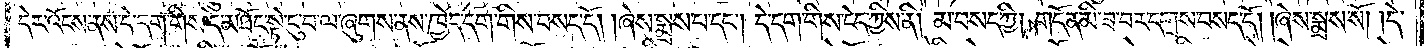དེར་འོངས་ནས་དེ་དག་གིས་དེ་མཐོང་སྟེ་ངུ་བ་ལ་ཞུགས་ནས་ཁྱེད་དག་གིས་བསད་དོ། །ཞེས་སྨྲས་པ་དང༌། དེ་དག་གིས་ངེད་ཀྱིས་ནི། མ་བསད་ཀྱི། གདོན་མི་ཟ་བར་དགྲས་བསད་དོ། །ཞེས་སྨྲས་སོ། །དེ་
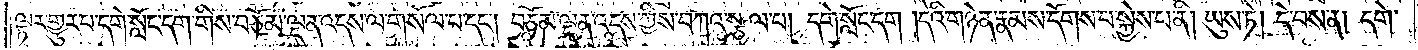ལྟར་གྱུར་པ་དགེ་སློང་དག་གིས་བཅོམ་ལྡན་འདས་ལ་གསོལ་པ་དང༌། བཅོམ་ལྡན་འདས་ཀྱིས་བཀའ་སྩལ་པ། དགེ་སློང་དག །དེའི་གཉེན་རྣམས་དོགས་པ་སྐྱེས་པ་ནི། ཡུས་ཏེ། དེ་བས་ན། དགེ་
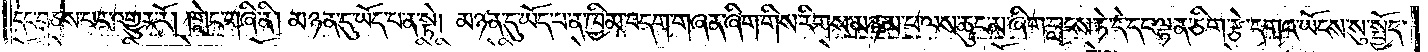དང་བཅས་པར་འགྱུར་རོ། །གླེང་གཞི་ནི། མཉན་དུ་ཡོད་པ་ན་སྟེ། མཉན་དུ་ཡོད་པ་ན་ཁྱིམ་བདག་གཞན་ཞིག་གིས་རིགས་མཉམ་པ་ལས་ཆུང་མ་ཞིག་བླངས་ཏེ་དེ་དང་ལྷན་ཅིག་རྩེ་དགའ་ཡོངས་སུ་སྤྱོད་
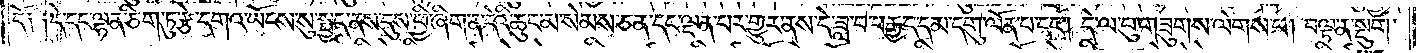དོ། །དེ་དང་ལྷན་ཅིག་ཏུ་རྩེ་དགའ་ཡོངས་སུ་སྤྱད་ནས་དུས་ཕྱི་ཞིག་ན་དེའི་ཆུང་མ་སེམས་ཅན་དང་ལྡན་པར་གྱུར་ནས་དེ་ཟླ་བ་བརྒྱད་དམ་དགུ་ལོན་པ་དང༌། དེ་ལ་བུ་གཟུགས་ལེགས་པ། བལྟ་ན་སྡུག་
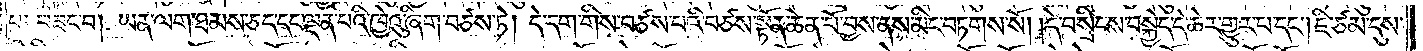པ། བཟང་བ། ཡན་ལག་ཐམས་ཅད་དང་ལྡན་པའི་ཁྱེའུ་ཞིག་བཙས་ཏེ། དེ་དག་གིས་བཙས་པའི་བཙས་སྟོན་ཆེན་པོ་བྱས་ནས་མིང་བཏགས་སོ། །དེ་བསྲིངས་བསྐྱེད་དེ་ཆེར་གྱུར་པ་དང༌། ཇི་ཙམ་དུས་
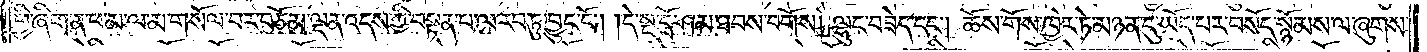ཕྱི་ཞིག་ན་ཕ་མ་ལ་མ་གསོལ་བར་བཅོམ་ལྡན་འདས་ཀྱི་བསྟན་པ་ལ་རབ་ཏུ་བྱུང་ངོ༌། །དེ་སྔ་དྲོ་ཤམ་ཐབས་བགོས། ལྷུང་བཟེད་དང༌། ཆོས་གོས་ཁྱེར་ཏེ་མཉན་དུ་ཡོད་པར་བསོད་སྙོམས་ལ་ཞུགས་
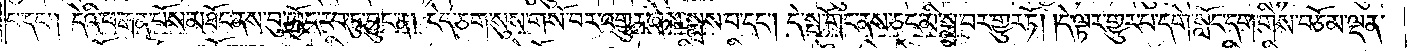པ་དང༌། དེའི་ཕ་རྒན་པོས་མཐོང་ནས་བུ་ཁྱོད་རབ་ཏུ་བྱུང་ན། ངེད་ཅག་སུས་གསོ་བར་འགྱུར་ཞེས་སྨྲས་པ་དང༌། དེ་སྤ་གོང་ནས་ཅང་མི་སྨྲ་བར་གྱུར་ཏོ། །དེ་ལྟར་གྱུར་པ་དགེ་སློང་དག་གིས་བཅོམ་ལྡན་
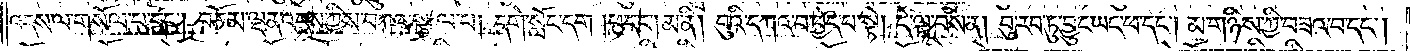འདས་ལ་གསོལ་པ་དང༌། བཅོམ་ལྡན་འདས་ཀྱིས་བཀའ་སྩལ་པ། དགེ་སློང་དག །ཕ་དང༌། མ་ནི། བུའི་དཀའ་བ་བྱེད་པ་སྟེ། དེ་ལྟ་བས་ན། བུ་རབ་ཏུ་བྱུང་ཡང་ཕ་དང༌། མ་གཉིས་ཀྱི་བཟའ་བ་དང༌།
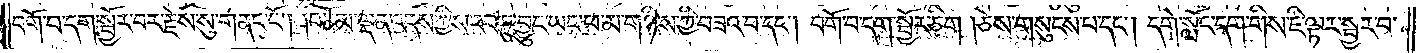བགོ་བ་དག་སྦྱོར་བར་རྗེས་སུ་གནང་ངོ༌། །བཅོམ་ལྡན་འདས་ཀྱིས་རབ་ཏུ་བྱུང་ཡང་ཕ་མ་གཉིས་ཀྱི་བཟའ་བ་དང༌། བགོ་བ་དག་སྦྱོར་ཅིག །ཅེས་གསུངས་པ་དང༌། དགེ་སློང་དག་གིས་ཇི་ལྟར་སྦྱར་བ་
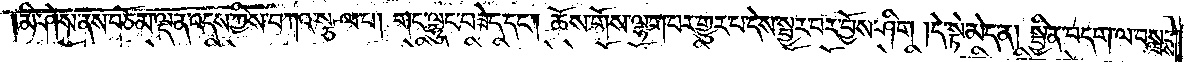མི་ཤེས་ནས་བཅོམ་ལྡན་འདས་ཀྱིས་བཀའ་སྩལ་པ། གང་ལྷུང་བཟེད་དང༌། ཆོས་གོས་ལྷག་པར་གྱུར་པ་དེས་སྦྱར་བར་བྱོས་ཤིག །དེ་སྟེ་མེད་ན། སྦྱིན་བདག་ལ་བསླངས་
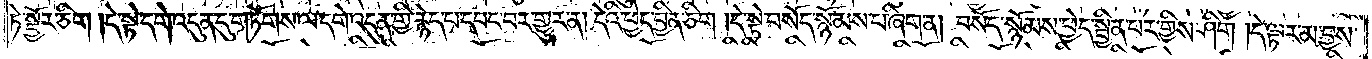ཏེ་སྦྱོར་ཅིག །དེ་སྟེ་དགེ་འདུན་དུ་གཏོགས་ལ་དགེ་འདུན་གྱི་རྙེད་པ་དབང་བར་གྱུར་ན། དེའི་ཕྱེད་བྱིན་ཅིག །དེ་སྟེ་བསོད་སྙོམས་པ་ཞིག་ན། བསོད་སྙོམས་ཕྱེད་སྦྱིན་པར་གྱིས་ཤིག །དེ་ལྟར་མ་བྱས་
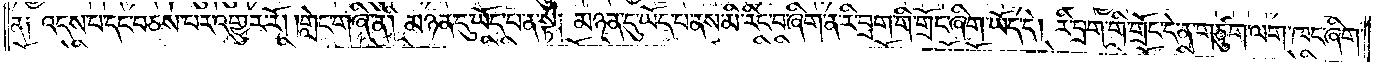ན། འདས་པ་དང་བཅས་པར་འགྱུར་རོ། །གླེང་གཞི་ནི། མཉན་དུ་ཡོད་པ་ན་སྟེ། མཉན་དུ་ཡོད་པ་ནས་མི་རིང་བ་ཞིག་ན་རི་བྲག་གི་གྲོང་ཞིག་ཡོད་དེ། རི་བྲག་གི་གྲོང་དེ་ན་གཙུག་ལག་ཁང་ཞིག་
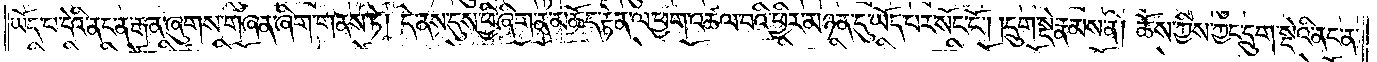ཡོད་པ་དེའི་ནང་ན་རྒན་ཞུགས་གཞན་ཞིག་གནས་ཏེ། དེ་ནས་དུས་ཕྱི་ཞིག་ན་མཆོད་རྟེན་ལ་ཕྱག་འཚལ་བའི་ཕྱིར་མཉན་དུ་ཡོད་པར་སོང་ངོ༌། །དྲུག་སྡེ་རྣམས་ནི། ཆོས་ཀྱིས་ཀྱང་དྲུག་སྡེའི་ནང་ན་
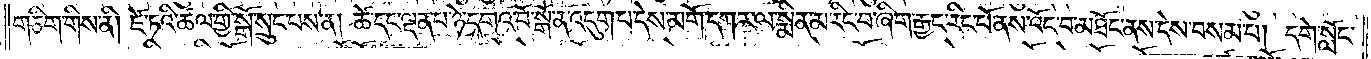གཅིག་གིས་ནི། ཛེ་ཏའི་ཚལ་གྱི་སྒོ་སྲུང་པས་ན། ཚེ་དང་ལྡན་པ་ཉེ་དགའ་བོ་སྒོ་ན་འདུག་པ་དེས་མགོ་དཀར་ལ་སྨིན་མ་རིང་བ་ཞིག་རྒྱང་རིང་པོ་ནས་འོང་བ་མཐོང་ནས་དེས་བསམ་པ། དགེ་སློང་
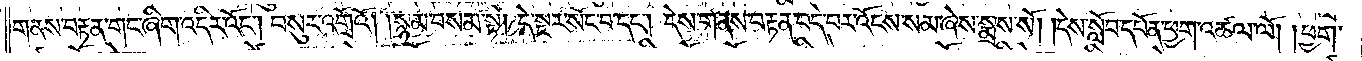གནས་བརྟན་གང་ཞིག་འདིར་འོང༌། བསུར་འགྲོའོ། །སྙམ་བསམ་སྟེ། དེ་སྔར་སོང་བ་དང༌། དེས་གནས་བརྟན་བདེ་བར་འོངས་སམ་ཞེས་སྨྲས་སོ། །དེས་སློབ་དཔོན་ཕྱག་འཚལ་ལོ། །ཕྱག་
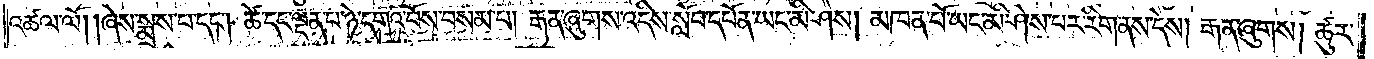འཚལ་ལོ། །ཞེས་སྨྲས་པ་དང༌། ཚེ་དང་ལྡན་པ་ཉེ་དགའ་བོས་བསམ་པ། རྒན་ཞུགས་འདིས་སློབ་དཔོན་ཡང་མི་ཤེས། མཁན་པོ་ཡང་མི་ཤེས་པར་རིག་ནས་དེས། རྒན་ཞུགས། ཚུར་
